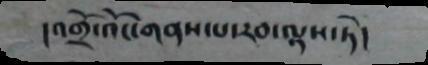།འགྲོ་འོང་གནས་པ་རབ་ལྟས་ཏེ།
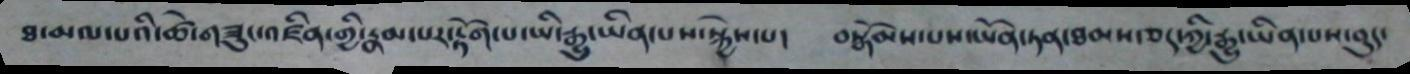ཐ་མལ་པའི་ཚེ་གཟུང་འཛིན་གྱི་རྣམ་པར་རྟོག་པ་ཡི་རྒྱུ་ཡིན་པས་སྐྱེས་པ། བསྒོམས་པས་ཡོན་ཏན་ཐམས་ཅད་ཀྱི་རྒྱུ་ཡིན་པས་བུད་
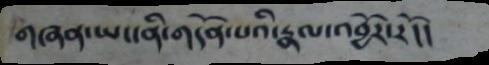གཞན་ཡང་ནི་གདོན་པའི་རྣལ་འབྱོར་རོ།།
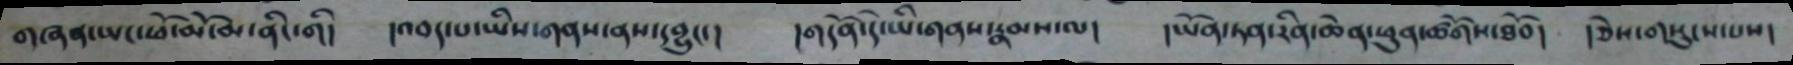གཞན་ཡང་ཕོ་མོ་མ་ནིང་གི། །འབད་པ་ཡིས་གནས་ན་དབྱུང་། །གདོན་དེ་ཡི་གནས་རྣམས་ལ། །ཡོན་ཏན་རིན་ཆེན་ཕུན་ཚོགས་ཐོབ། །ཅེས་གསུངས་པས།
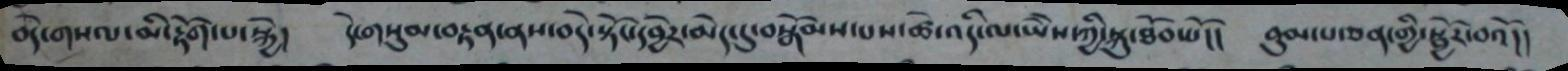བདེ་གསལ་མི་རྟོག་པ་སྐྱེ། དེ་གསུམ་བརྟན་ནས་བདེ་སྟོང་དབྱེར་མེད་དུ་བསྒོམས་པས་ཚེ་འདི་ལ་ཡཻས་ཀྱི་སྐུ་ཐོབ་པོ།། བུམ་པ་ཅན་གྱི་སྦྱོར་བའོ།།
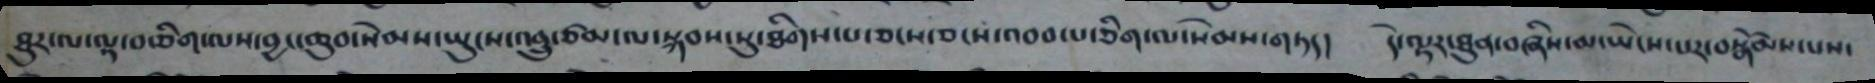ཐུར་ལ་ལྟ་བ་ཅིག་ལས་བྱང་ཆུབ་སེམས་ཡུངས་འབྲུ་ཙམ་ལ་སྐབས་སུ་ཐིགས་པ་ཅངས་ཅངས་འབབ་པ་ཅིག་ལ་སེམས་གཏད། དེ་ལྟར་ཐུན་བཞིས་མ་ཡེངས་པར་བསྒོམས་པས་
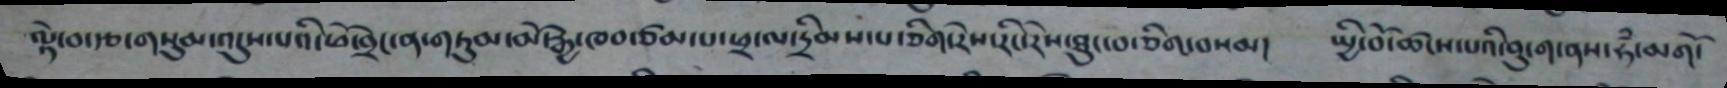ལྟེ་བ་རྩ་གསུམ་འདུས་པའི་ཕོ་བྲང་ན་གཏུམ་མོ་རྒྱ་ཁབ་ཙམ་པ་ཕྲ་ལ་དྲིམས་པ་ཅིག་རེས་རིང་རེས་ཐཱུང་བ་ཅིག་བསམ། སྤྱི་བོ་ཚངས་པའི་བུ་ག་ནས་ཧཾ་མགོ་
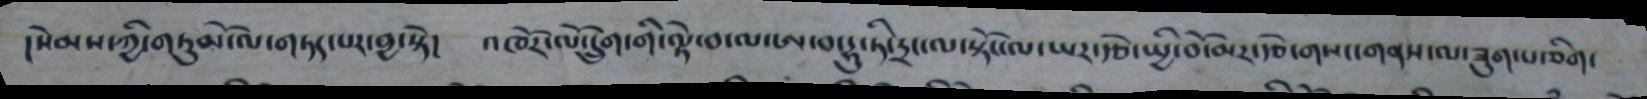།སེམས་ཀྱི་གཏུམོ་ལ་གཏད་པར་བྱ་སྟེ། འཁཽར་ལོ་དྲུག་གི་ལྟེ་བ་ལ་ཨ་བ་དྷུ་ཏི་དྲང་ལ་སྟོང་ལ་ཡར་རྩེ་སྤྱི་བོ་མར་རྩེ་གསང་གནས་ཟུག་པ་ཅིག་
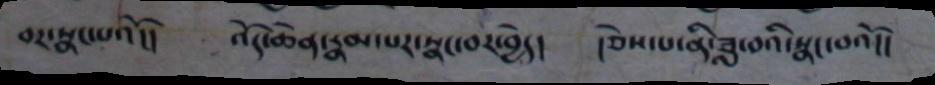བར་སྣང་པའོ།། འོད་ཆེན་རྣམ་པར་སྣང་བར་བྱེད། །ཅེས་པ་ནི་ཟླ་བའི་སྣང་བའོ།།
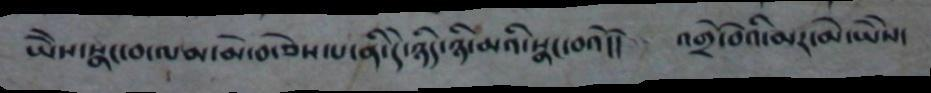ཡཻས་སྣང་བ་ལམ་མེ་བ་ཅེས་པ་ནི་དེ་ཉིད་ཉི་མའི་སྣང་བའོ།། འགྲོ་བའི་མར་མེ་ཡཻས་
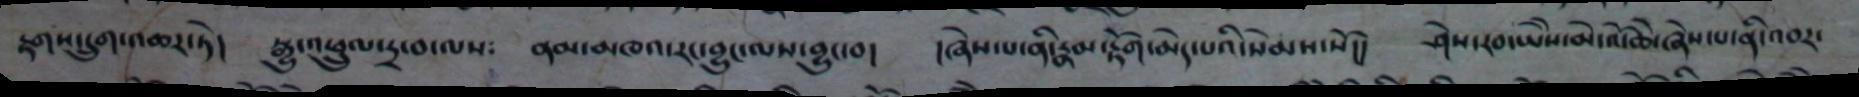རྟགས་དྲུག་འཆར་ཏེ། སྒྱུ་འཕྲུལ་དྲ་བ་ལས༴ ནམ་མཁའ་རང་བྱུང་ལས་བྱུང་བ། །ཞེས་པ་ནི་རྣམ་རྟོག་མེད་པའི་སེམས་སོ། ཤེས་རབ་ཡཻས་མེ་འོ་ཆཻ་ཞེས་པ་ནི་འབར་
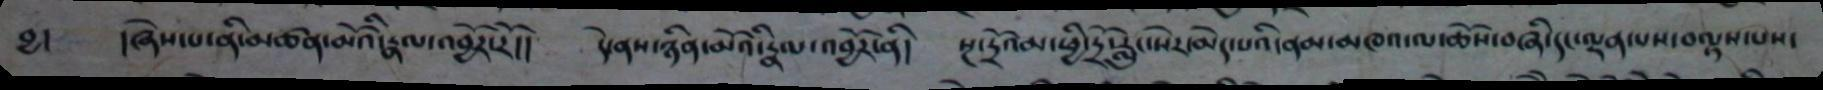བྱ། །ཞེས་པ་ནི་མཚན་མོའི་རྣལ་འབྱོར་རོ།། དེ་ནས་ཉིན་མོའི་རྣལ་འབྱོར་ནི། སྔ་དྲོའམ་ཕྱི་དྲོ་རླུང་སེར་མེད་པའི་ནམ་མཁའ་ལ་ཆོས་བཞི་དང་ལྡན་པས་བལྟས་པས་
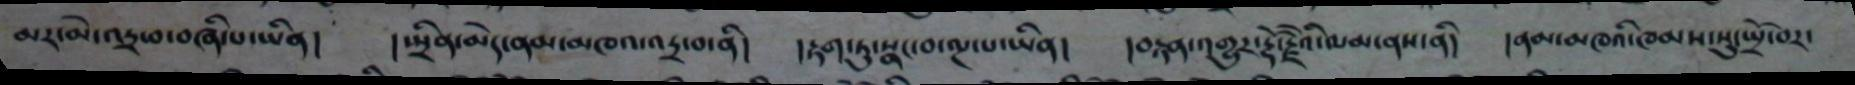མར་མེ་འདྲ་བ་བཞི་པ་ཡིན། །སྤྲིན་མེད་ནམ་མཁའ་འདྲ་བ་ནི། །རྟག་ཏུ་སྣང་བ་ལྔ་པ་ཡིན། །བརྟན་འགྱུར་རྡོ་རྗེའི་ལམ་ནས་ནི། །ནམ་མཁའི་ཁམས་སུ་སྤྲོ་བར་
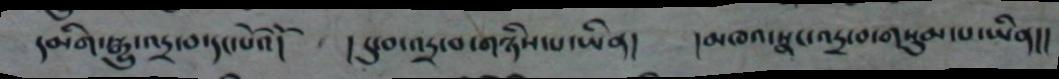དམིག་སྒྱུ་འདྲ་བ་དང་པོའོ། །དུ་བ་འདྲ་བ་གཉིས་པ་ཡིན། །མཁའ་སྣང་འདྲ་བ་གསུམ་པ་ཡིན།།
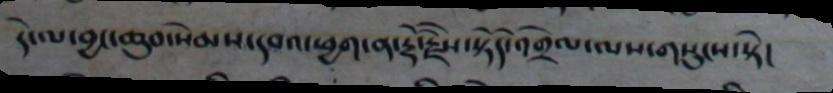དེ་ལ་བྱང་ཆུབ་སེམས་དཔའ་ཕྱག་ན་རྡོ་རྗཻས་སྟོད་འགྲེལ་ལས་གསུངས་སྟེ།
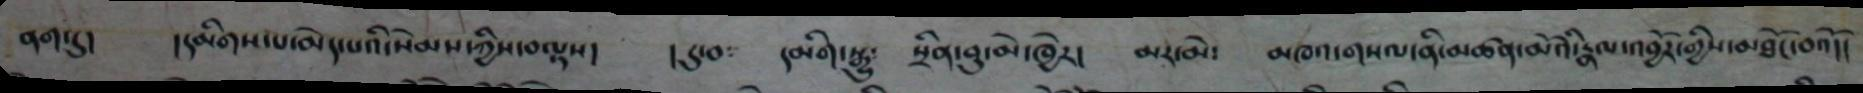ནག་དུ། །དམིགས་པ་མེད་པའི་སེམས་ཀྱིས་བལྟས། །དུ་བ༴ དམིག་སྒྱུ༴ སྲིན་བུ་མེ་ཁྱེར། མར་མེ༴ མཁའ་གསལ་ནི་མཚན་མོའི་རྣལ་འབྱོར་གྱིས་མཐོང་བའོ།།
